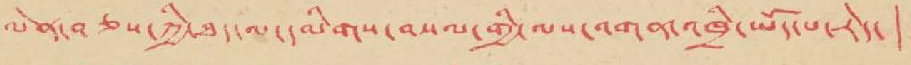ལེན་བཅས་ཀྱི་ཐད་ལ་དམིགས་བསལ་གྱི་ལས་འགན་འཁྲི་ཡོད་པ་རེད་
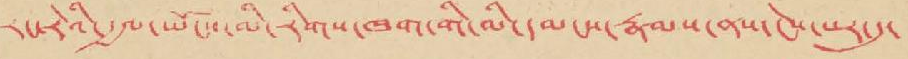རང་རེའི་རྒྱལ་ཡོངས་མི་རིགས་ཁག་གི་མི་དམངས་རྣམས་ནས་ངེས་པར་དུ་
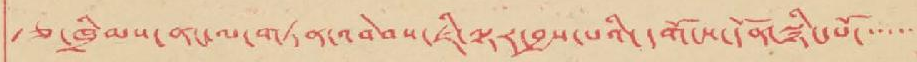རྩ་ཁྲིམས་ནང་ལ་གཏན་འབེབས་ཇི་ལྟར་བྱས་པའི་དགོངས་དོན་སྙིང་པོ་་་་་་
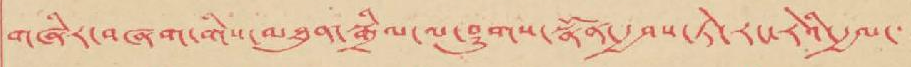གཞིར་བཞག་གིས་མཐུན་སྒྲིལ་ལ་ཤུགས་སྣོན་རྒྱབས་ཏེ་རང་རེའི་རྒྱལ་
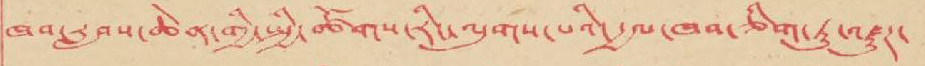ཁབ་རླབས་ཆེན་གྱི་སྤྱི་ཚོགས་རིང་ལུགས་པའི་རྒྱལ་ཁབ་ཅིག་ཏུ་འཛུཊ་
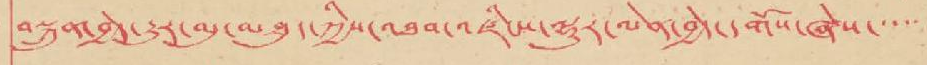བསྐྲུན་བྱེད་རྒྱུར་མུ་མཐུད་ཀྱིས་འཐབ་འཛིངས་ལྷུར་ལེན་བྱེད་དགོས་ཞེས་་་་་
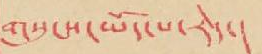གསུངས་ཡོད་པ་རེད་།
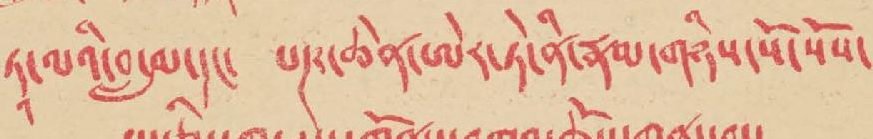ཏཱ་ལའི་བླ་མ་དང་ པཎ་ཆེན་ཨེར་ཏེ་ནི་རྣམ་གཉིས་སོ་སོས་
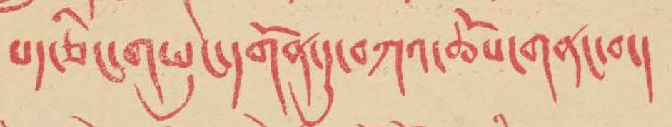པད་ཅིང་གཡུང་དགོན་དུ་བཀའ་ཆོས་གནང་བ་།
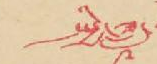སྤྱི་ཟླ་
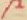༩
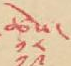ཚེས་
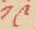༡༩
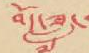བོད་ཟླ་
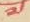༧
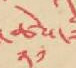ཚེས་
